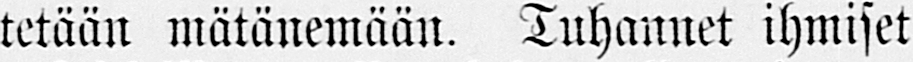tetään mätänemään. Tuhannet ihmiset
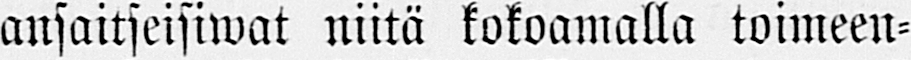ansaitseisiwat niitä kokoamalla toimeen-
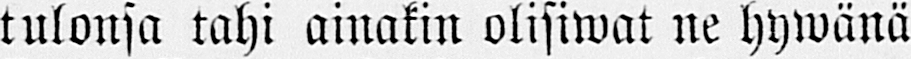tulonsa tahi ainakin olisiwat ne hywänä
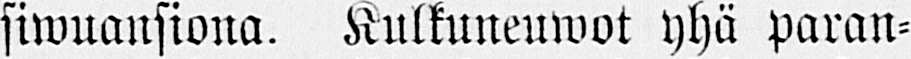siwuansiona. Kulkuneuwot yhä paran-
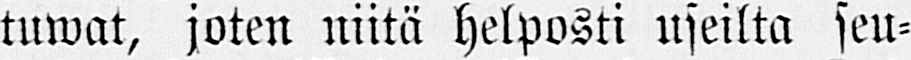tuwat, joten niitä helposti useilta seu-
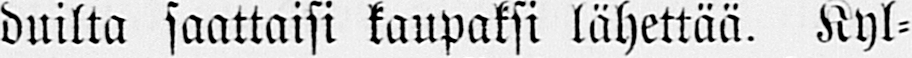duilta saattaisi kaupaksi lähettää. Kyl-
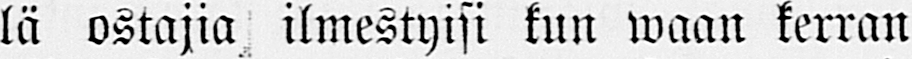lä ostajia ilmestyisi kun waan kerran
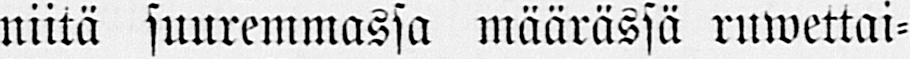niitä suuremmassa määrässä ruwettai-
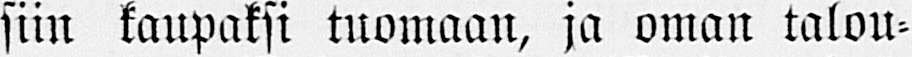siin kaupaksi tuomaan, ja oman talou-
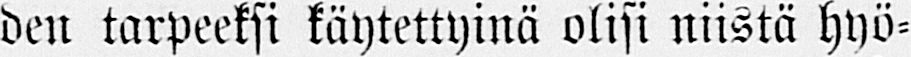den tarpeeksi käytettyinä olisi niistä hyö-
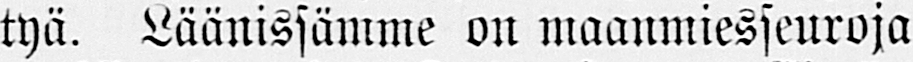tyä. Läänissämme on maanmiesseuroja
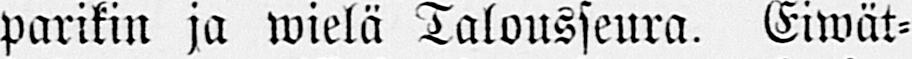parikin ja wielä Talousseura. Eiwät-
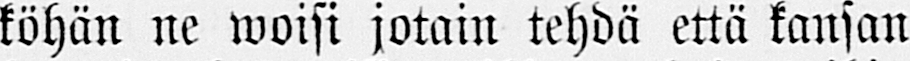köhän ne woisi jotain tehdä että kansan
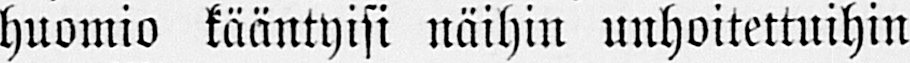huomio kääntyisi näihin unhoitettuihin
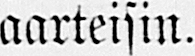aarteisin.
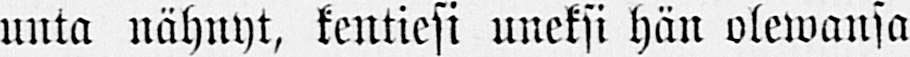unta nähnyt, kentiesi uneksi hän olewansa
